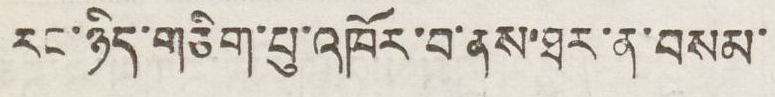རང་ཉིད་གཅིག་པུ་འཁོར་བ་ནས་ཐར་ན་བསམ་
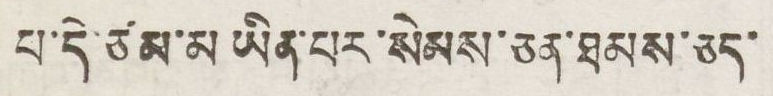པ་དེ་ཙམ་མ ཡིན་པར་སེམས་ཅན་ཐམས་ཅད་
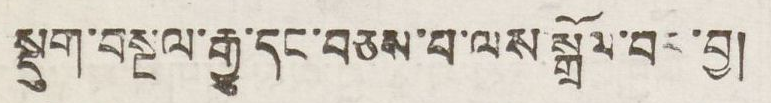སྡུག་བསྔལ་རྒྱུ་དང་བཅས་པ་ལས་སྒྲོལ་བར་བྱ།
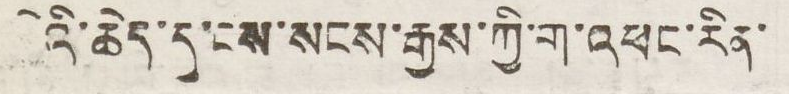དེའི་ཆེད་དུ་ངས་སངས་རྒྱས་ཀྱི་གོ་འཕང་རིན་
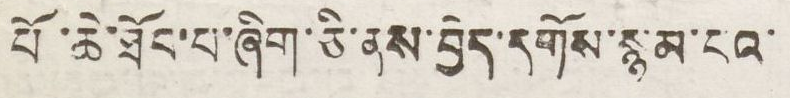པོ་ཆེ་ཐོང་པ་ཞིག་ཅི་ནས་བྱེད་དགོས་སྙམ་པའ་
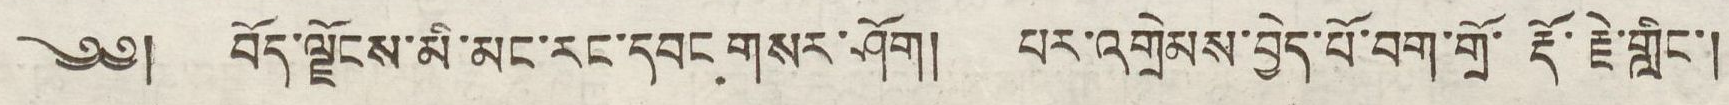༄༅། བོད་ལྗོངས་མི་མང་རང་དབང གསར་ཤོག།   པར་འགྲེམས་བྱེད་པོ་བག་གྲོ་ རྡོ་རྗེ་གླིང་།
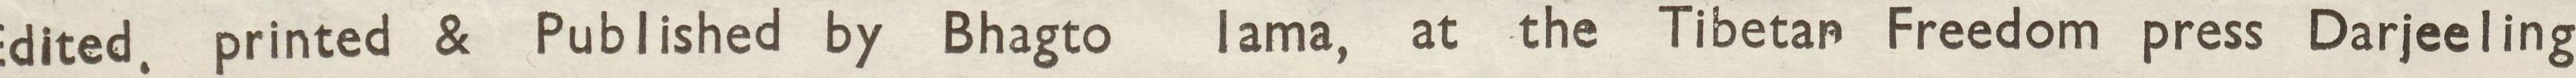Edited printed & Published by Bhagto lama, at the Tibetan Freedom press Darjeeling
